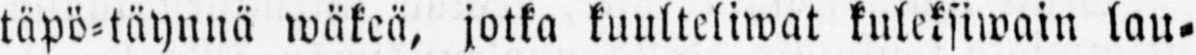täpö-täynnä wäkeä, jotka kuulteliwat kuleksiwain lau-
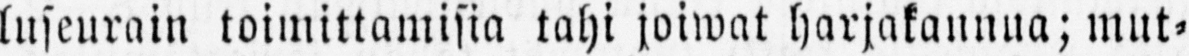luseurain toimittamisia tahi joiwat harjakannua; mut-
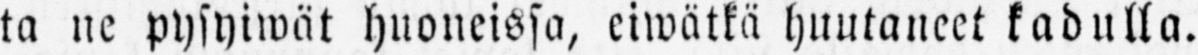ta ne pysyiwät huoneissa, eiwätkä huutaneet kadulla.
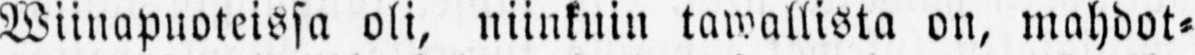Wiinapuoteissa oli, niinkuin tawallista on, mahdot-
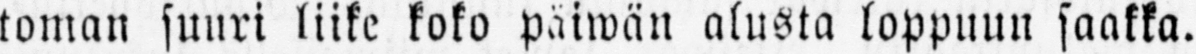toman suuri liike koko päiwän alusta loppuun saakka.
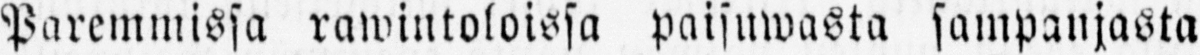Paremmissa rawintoloissa paisuwasta sampanjasta
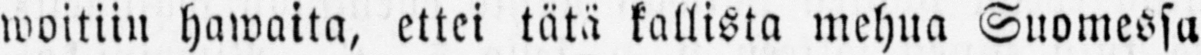woitiin hawaita, ettei tätä kallista mehua Suomessa
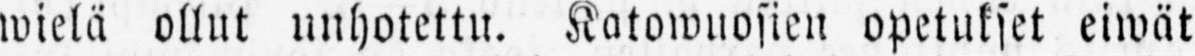wielä ollut unhotettu. Katowuosieun opetukset eiwät
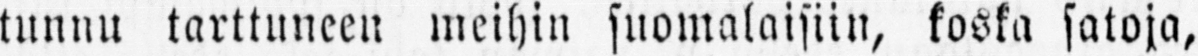tunnu tarttuneen meihin suomalaisiin koska satoja,
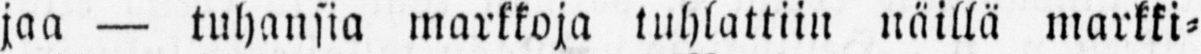jaa — tuhansia markkoja tuhlattiin näillä markki-
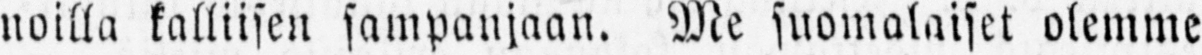noilla kalliisen sampanjaan. Me suomalaiset olemme
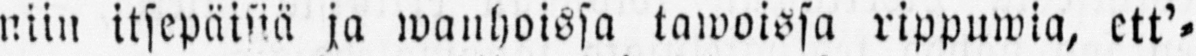niin itsepäisnä ja wanhoissa tawoissa rippuwia, ett'-
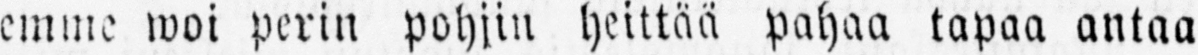emme woi perin pohjin heittää pahaa tapaa antaa
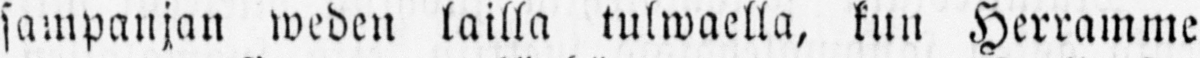sampanjan weden lailla tulwaella, kun Herramme
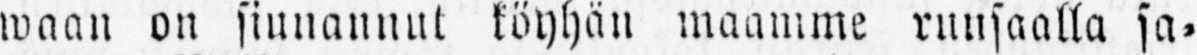waan on siunannut köyhän maamme runsaalla sa-
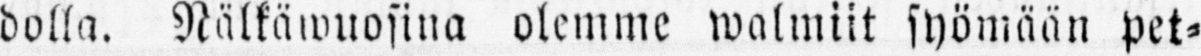dolla. Nälkäwuosina olemme walmiit syömään pet-
